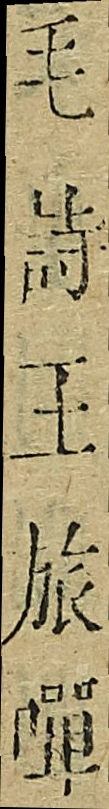毛詩王旅嘽
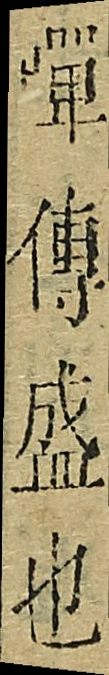嘽傳盛也
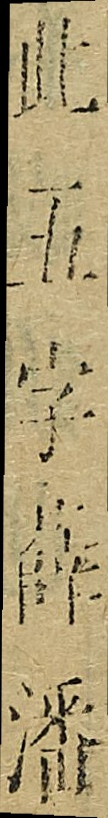此五字薛潘
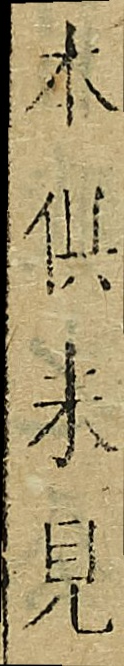本俱未見
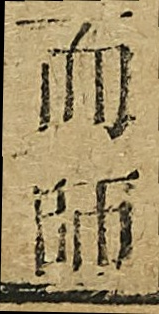而師
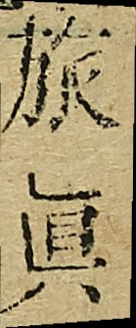旅真
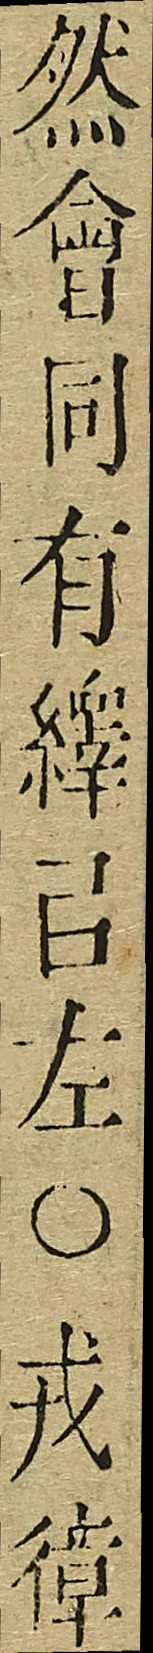然會同遊釋以左○戎𢕔
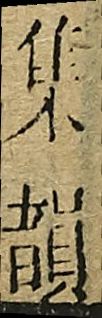集韻
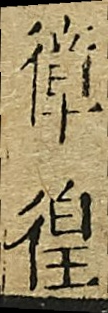𢕔徨
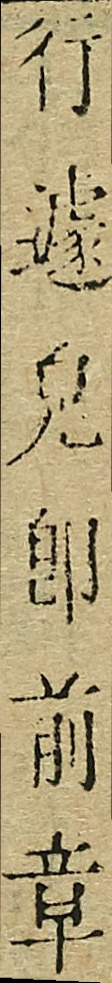行遽皃卽前章
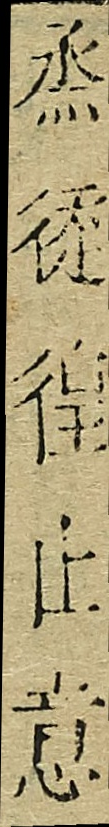烝徙徨止意
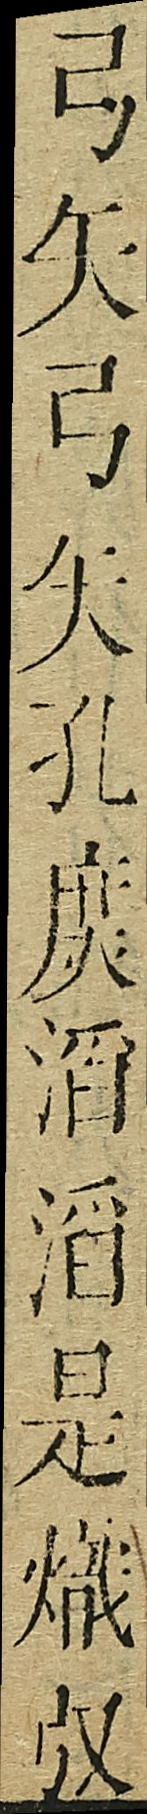弓矢弓矢孔？滔滔是𤐚驭
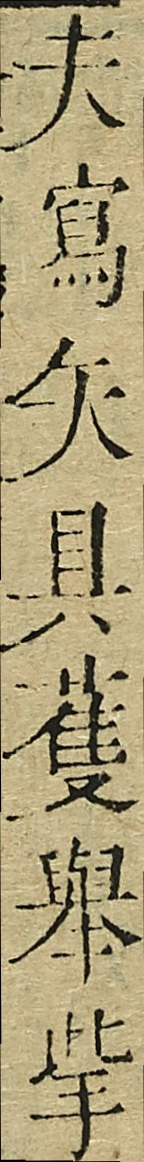夫寫矢具蒦舉㧘
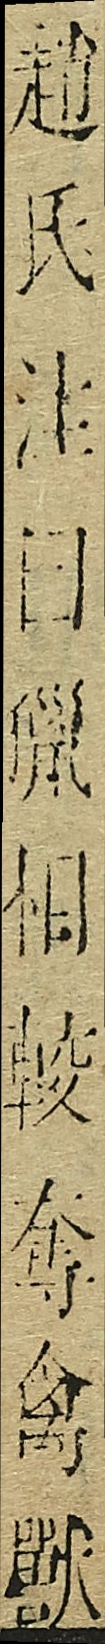趙氏注月獵相較奪禽獸
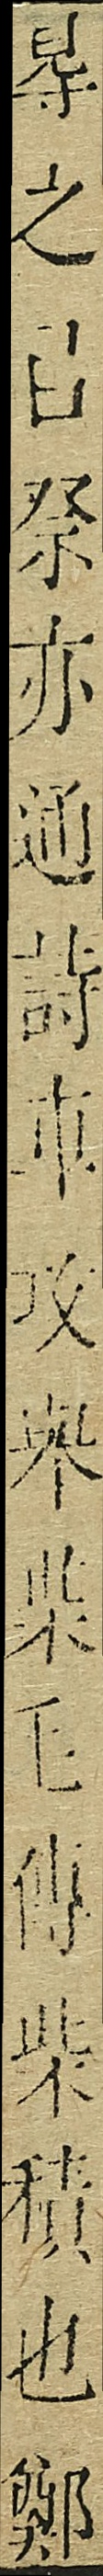䙷之呂祭亦通詩車攻𦤎柴毛傳柴積也鄭
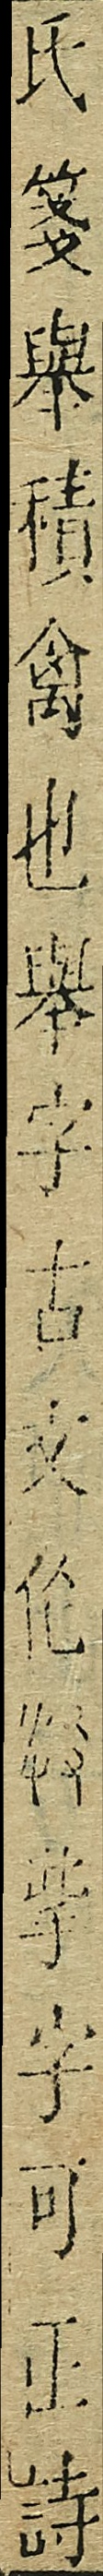氏箋舉積禽也舉字古文伦？㧘字可正詩
